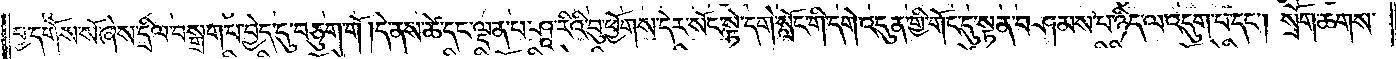བྱ་དགོས་སོ་ཞེས་དྲིལ་བསྒྲག་པ་བྱེད་དུ་བཅུག་གོ །དེ་ནས་ཚེ་དང་ལྡན་པ་ཤཱ་རིའི་བུ་ཕྱོགས་དེར་སོང་སྟེ་དགེ་སློང་གི་དགེ་འདུན་གྱི་གོང་དུ་སྟན་བཤམས་པ་ཉིད་ལ་འདུག་པ་དང༌། སྲོག་ཆགས་
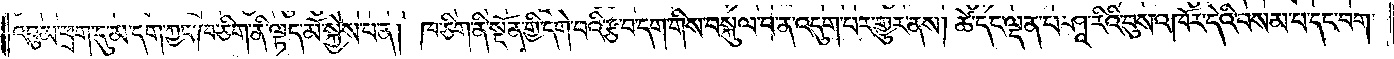འབུམ་ཕྲག་དུ་མ་དག་ཀྱང་ཁ་ཅིག་ནི་ལྟད་མོ་སྐྱེས་པ་ན། ཁ་ཅིག་ནི་སྔོན་གྱི་དགེ་བའི་རྩ་བ་དག་གིས་བསྐུལ་བ་ན་འདུག་པར་གྱུར་ནས། ཚེ་དང་ལྡན་པ་ཤཱ་རིའི་བུས་འཁོར་དེའི་བསམ་པ་དང་བག་
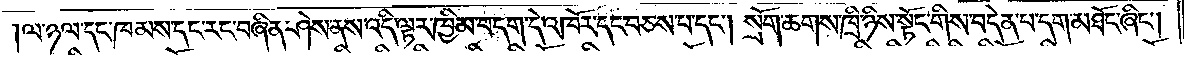ལ་ཉལ་དང་ཁམས་དང་རང་བཞིན་ཤེས་ནས་འདི་ལྟར་ཁྱིམ་བདག་དེ་འཁོར་དང་བཅས་པ་དང༌། སྲོག་ཆགས་ཁྲི་ཉིས་སྟོང་གིས་བདེན་པ་དག་མཐོང་ཞིང༌།
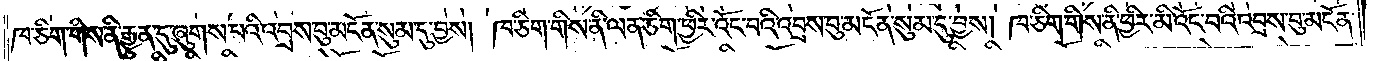ཁ་ཅིག་གིས་ནི་རྒྱུན་དུ་ཞུགས་པའི་འབྲས་བུ་མངོན་སུམ་དུ་བྱས། ཁ་ཅིག་གིས་ནི་ལན་ཅིག་ཕྱིར་འོང་བའི་འབྲས་བུ་མངོན་སུམ་དུ་བྱས། ཁ་ཅིག་གིས་ནི་ཕྱིར་མི་འོང་བའི་འབྲས་བུ་མངོན་
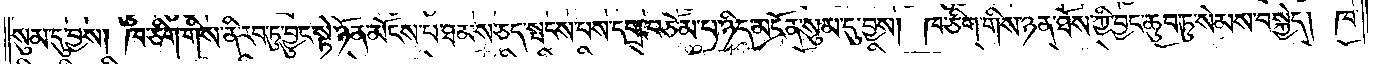སུམ་དུ་བྱས། ཁ་ཅིག་གིས་ནི་རབ་ཏུ་བྱུང་སྟེ་ཉོན་མོངས་པ་ཐམས་ཅད་སྤངས་པས་དགྲ་བཅོམ་པ་ཉིད་མངོན་སུམ་དུ་བྱས། ཁ་ཅིག་གིས་ཉན་ཐོས་ཀྱི་བྱང་ཆུབ་ཏུ་སེམས་བསྐྱེད། ཁ་
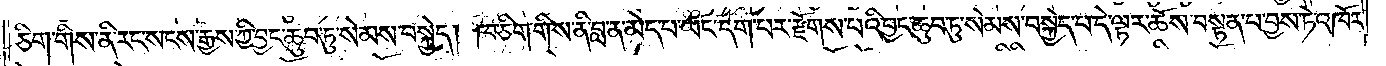ཅིག་གིས་ནི་རང་སངས་རྒྱས་ཀྱི་བྱང་ཆུབ་ཏུ་སེམས་བསྐྱེད། ཁ་ཅིག་གིས་ནི་བླ་ན་མེད་པ་ཡང་དག་པར་རྫོགས་པའི་བྱང་ཆུབ་ཏུ་སེམས་བསྐྱེད་པ་དེ་ལྟར་ཆོས་བསྟན་པ་བྱས་ཏེ་འཁོར་
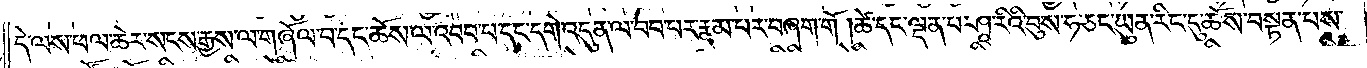དེ་ལས་ཕལ་ཆེར་སངས་རྒྱས་ལ་གཞོལ་བ་དང་ཆོས་ལ་འབབ་པ་དང་དགེ་འདུན་ལ་བབ་པར་རྣམ་པར་བཞག་གོ །ཚེ་དང་ལྡན་པ་ཤཱ་རིའི་བུས་ཧ་ཅང་ཡུན་རིང་དུ་ཆོས་བསྟན་པས་
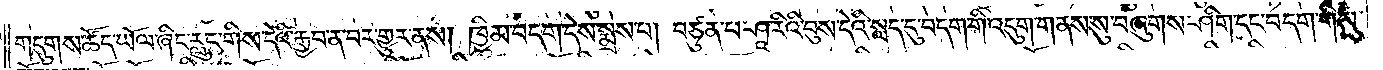གདུགས་ཚོད་ཡོལ་ཞིང་རླུང་གིས་དེའི་རྒྱབ་ན་བར་གྱུར་ནས། ཁྱིམ་བདག་དེས་སྨྲས་པ། བཙུན་པ་ཤཱ་རིའི་བུས་དེའི་སླད་དུ་བདག་གི་འདུག་གནས་སུ་བཞུགས་ཤིག་དང་བདག་གིས་
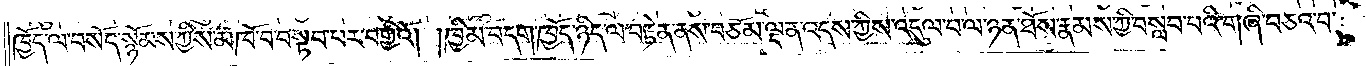ཁྱོད་ལ་བསོད་སྙོམས་ཀྱིས་མཁོ་བ་བསྟབ་པར་བགྱིའོ། །ཁྱིམ་བདག་ཁྱོད་ཉིད་ལ་བརྟེན་ནས་བཅོམ་ལྡན་འདས་ཀྱིས་འདུལ་བ་ལ་ཉན་ཐོས་རྣམས་ཀྱི་བསླབ་པའི་གཞི་བཅའ་བ་
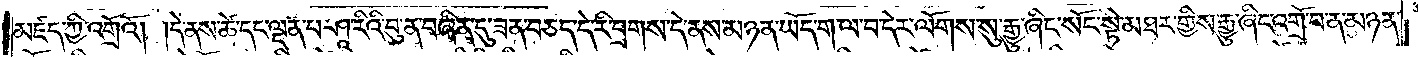མཛད་ཀྱི་འགྲོའོ། །དེ་ནས་ཚེ་དང་ལྡན་པ་ཤཱ་རིའི་བུ་ན་བཞིན་དུ་ཟན་བཅད་དེ་རི་བྲགས་དེ་ནས་མཉན་ཡོད་ག་ལ་བ་དེར་ལོགས་སུ་རྒྱུ་ཞིང་སོང་སྟེ་མཐར་གྱིས་རྒྱུ་ཞིང་འགྲོ་བ་ན་མཉན་
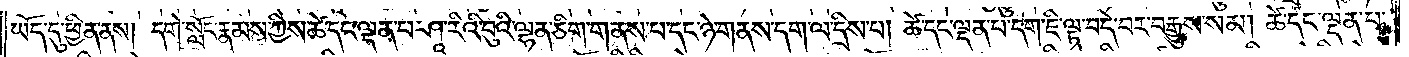ཡོད་དུ་ཕྱིན་ནས། དགེ་སློང་རྣམས་ཀྱིས་ཚེ་དང་ལྡན་པ་ཤཱ་རིའི་བུའི་ལྷན་ཅིག་གནས་པ་དང་ཉེ་གནས་དག་ལ་དྲིས་པ། ཚེ་དང་ལྡན་པ་དག་ཇི་ལྟ་བདེ་བར་བརྒྱུས་སམ། ཚེ་དང་ལྡན་པ་
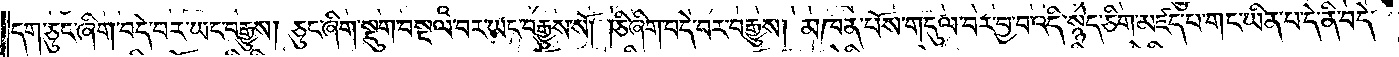དག་ཅུང་ཞིག་བདེ་བར་ཡང་བརྒྱུས། ཅུང་ཞིག་སྡུག་བསྔལ་བར་ཡང་བརྒྱུས་སོ། །ཅི་ཞིག་བདེ་བར་བརྒྱུས། མཁན་པོས་གདུལ་བར་བྱ་བ་འདི་སྙེད་ཅིག་མཛད་པ་གང་ཡིན་པ་དེ་ནི་བདེ་
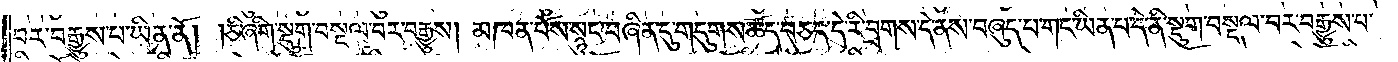བར་བརྒྱུས་པ་ཡིན་ནོ། །ཅི་ཞིག་སྡུག་བསྔལ་བར་བརྒྱུས། མཁན་པོས་སྙུང་བཞིན་དུ་གདུགས་ཚོད་བཅད་དེ་རི་བྲགས་དེ་ནས་བཞུད་པ་གང་ཡིན་པ་དེ་ནི་སྡུག་བསྔལ་བར་བརྒྱུས་པ་
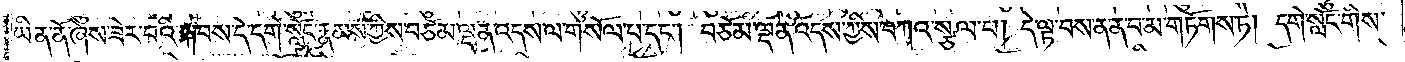ཡིན་ནོ་ཞེས་ཟེར་བའི་སྐབས་དེ་དགེ་སློང་རྣམས་ཀྱིས་བཅོམ་ལྡན་འདས་ལ་གསོལ་པ་དང༌། བཅོམ་ལྡན་འདས་ཀྱིས་བཀའ་སྩལ་པ། དེ་ལྟ་བས་ན་ན་བ་མ་གཏོགས་ཏེ། དགེ་སློང་གིས་
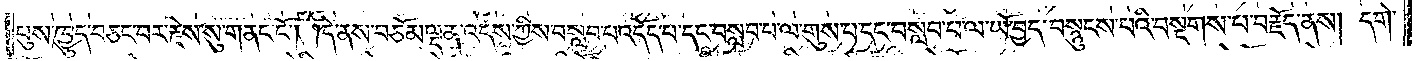པུས་ཁྱུད་བཅང་བར་རྗེས་སུ་གནང་ངོ༌། །དེ་ནས་བཅོམ་ལྡན་འདས་ཀྱིས་བསླབ་པ་འདོད་པ་དང་བསླབ་པ་ལ་གུས་པ་དང་བསླབ་པ་ལ་ཡོ་བྱད་བསྙུངས་པའི་བསྔགས་པ་བརྗོད་ནས། དགེ་
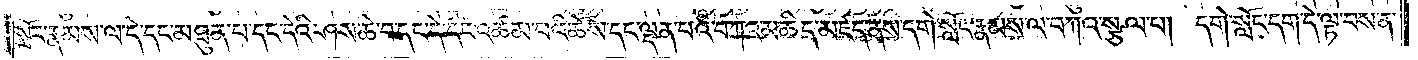སློང་རྣམས་ལ་དེ་དང་མཐུན་པ་དང་དེའི་ཤས་ཆེ་བ་དང་དེ་དང་འཚམ་པའི་ཆོས་དང་ལྡན་པའི་བཀའ་མཆིད་མཛད་ནས་དགེ་སློང་རྣམས་ལ་བཀའ་སྩལ་པ། དགེ་སློང་དག་དེ་ལྟ་བས་ན་
